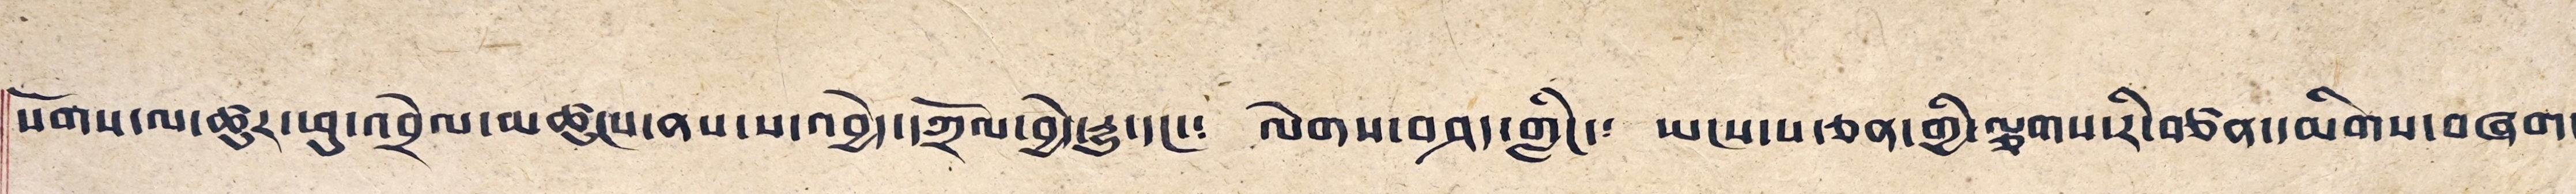སོགས་ལ་ཚུར་ཕུ་འབྲེལ་མཚུངས་ནས་ས་འབྱེད་དཀྲོལ་བྱེད་རྒྱུ་དང་༴ ལེགས་བཤད་གླིང་༴ ཡངས་པ་ཅན་གྱི་ལྕགས་རི་བཙན་དམིགས་བཞག་
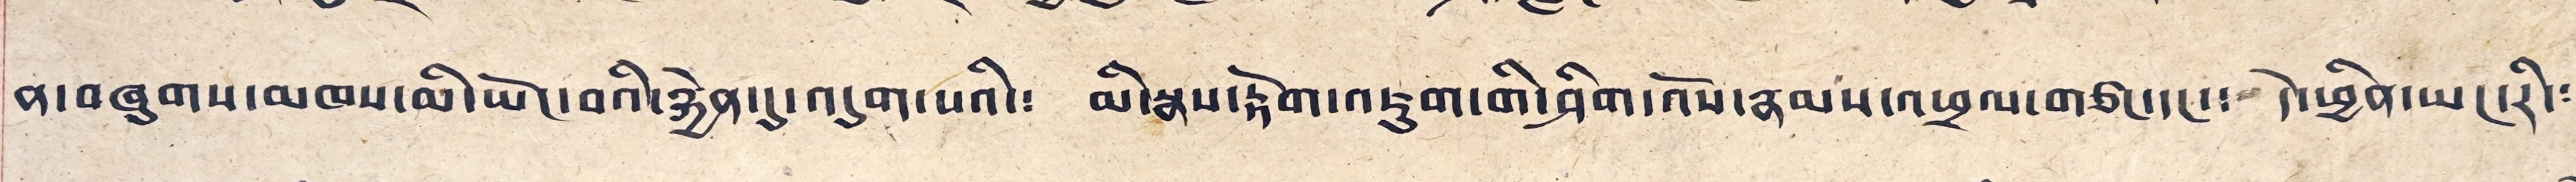ན་བཞུགས་མཁས་མི་ཡོང་བའི་རྐྱེན་དུ་འདུག་པའི་༴ མི་སྣས་རྟོག་འཇུག་གི་ཤིག་འོས་རྣམས་འཕྲལ་གཙང་དང་༴ དེ་ཕྱིན་ཡང་རི༴
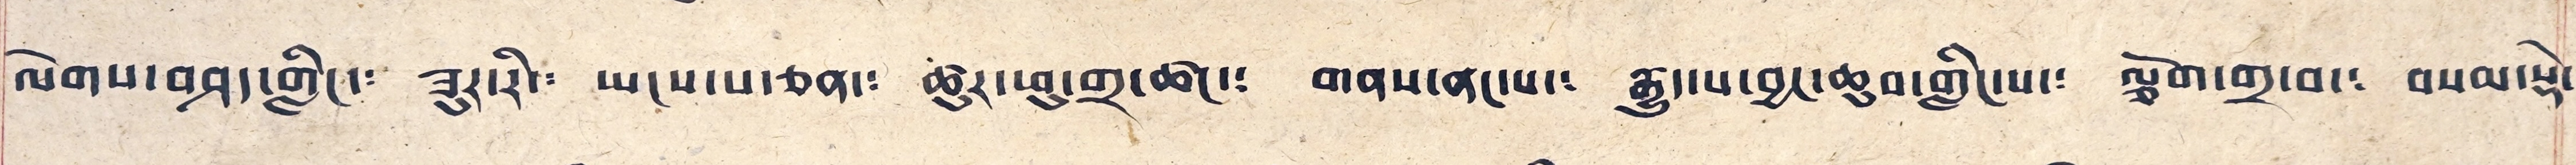ལེགས་བཤད་གླིང་༴ ཟུར་རི་༴ ཡངས་པ་ཅན་༴ ཚུར་ཕུ་གྲ་ཚང་༴ གནས་ནང་པ་༴ རྒྱུད་པ་བྱང་ཆུབ་གླིང་པ་༴ ལྕོག་གྲ་བ་༴ བསམ་སྡེ་
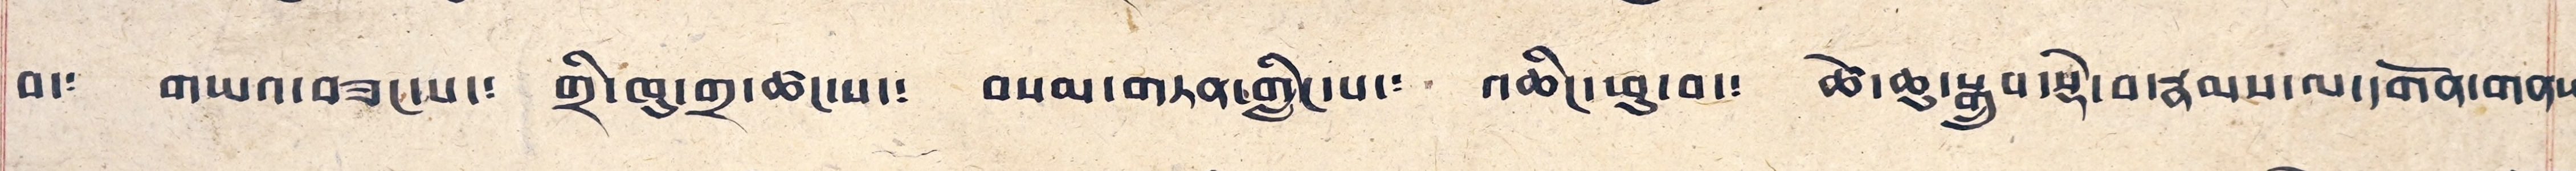བ་༴ གཡའ་བཟང་པ་༴ གྲི་ཁུ་གྲ་ཚང་པ་༴ བསམ་གཏན་གླིང་པ་༴ འཆིང་ཕུ་བ་༴ ཚེ་ཆུ་སྒྲུབ་སྡེ་བ་རྣམས་ལ་དགོན་གནས༴
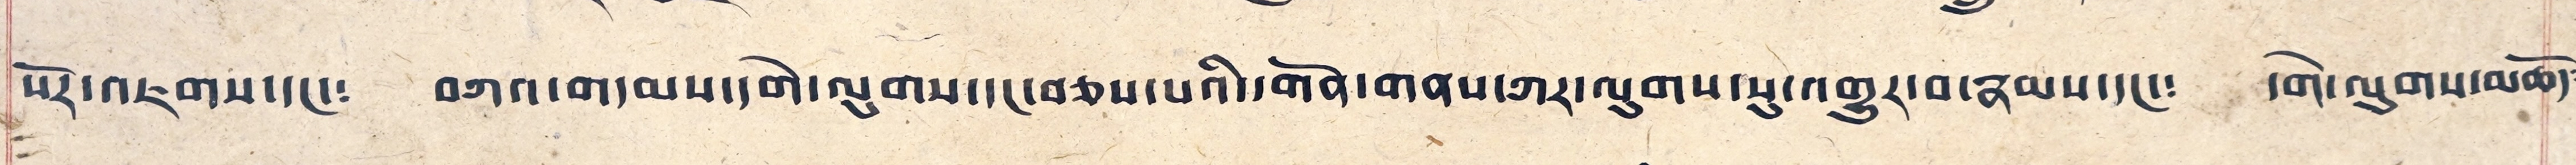པོར་འཇགས་དང་༴ བཀའ་གདམས་དགེ་ལུགས་དང་བཅས་པའི་དགོན་གནས་ཀར་ལུགས་སུ་འགྱུར་བ་རྣམས་དང་༴ དགེ་ལུགས་མཆོད༴
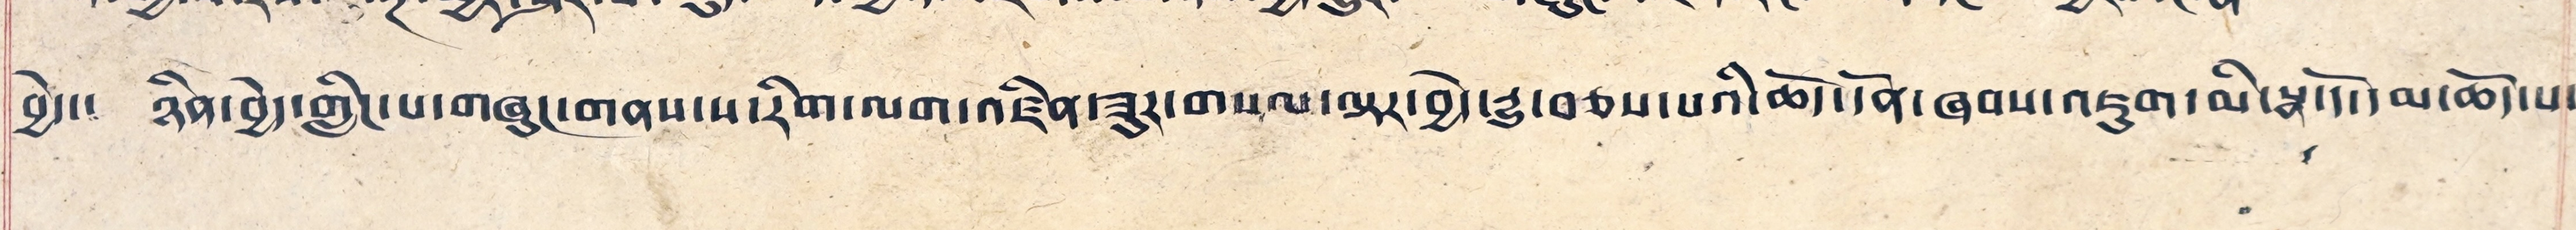བྱེད་། ཉིན་བྱེད་གླིང་པ་གཞུང་གནས་པ་རིག་ལག་འཛིན་ཟུར་གསལ་ལྟར་བྱེད་རྒྱུ་བཅས་པའི་ཆོད་དོན་ཞབས་འཇུག་མི་སྣ་དོ་དམ་ཆོད་པ་
